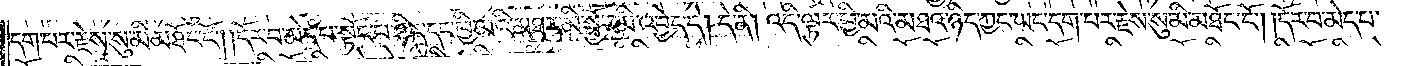དག་པར་རྗེས་སུ་མི་མཐོང་ངོ༌། །དོར་བ་མེད་པ་སྟོང་པ་ཉིད་དང་ཕྱི་མའི་མཐར་མི་སྦྱོར་མི་འབྱེད་དེ། དེ་ནི། འདི་ལྟར་ཕྱི་མའི་མཐའ་ཉིད་ཀྱང་ཡང་དག་པར་རྗེས་སུ་མི་མཐོང་ངོ༌། །དོར་བ་མེད་པ་
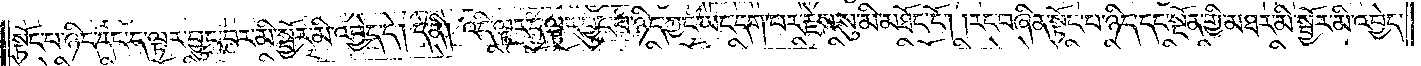སྟོང་པ་ཉིད་དང་ད་ལྟར་བྱུང་བར་མི་སྦྱོར་མི་འབྱེད་དེ། དེ་ནི། འདི་ལྟར་ད་ལྟར་བྱུང་བ་ཉིད་ཀྱང་ཡང་དག་པར་རྗེས་སུ་མི་མཐོང་ངོ༌། །རང་བཞིན་སྟོང་པ་ཉིད་དང་སྔོན་གྱི་མཐར་མི་སྦྱོར་མི་འབྱེད་
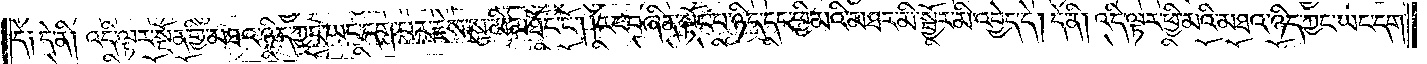དེ༑ དེ་ནི། འདི་ལྟར་སྔོན་གྱི་མཐའ་ཉིད་ཀྱང་ཡང་དག་པར་རྗེས་སུ་མི་མཐོང་ངོ༌། །རང་བཞིན་སྟོང་པ་ཉིད་དང་ཕྱི་མའི་མཐར་མི་སྦྱོར་མི་འབྱེད་དེ། དེ་ནི། འདི་ལྟར་ཕྱི་མའི་མཐའ་ཉིད་ཀྱང་ཡང་དག་
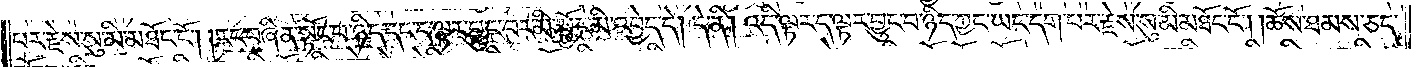པར་རྗེས་སུ་མི་མཐོང་ངོ༌། །རང་བཞིན་སྟོང་པ་ཉིད་དང་ད་ལྟར་བྱུང་བར་མི་སྦྱོར་མི་འབྱེད་དེ། དེ་ནི། འདི་ལྟར་ད་ལྟར་བྱུང་བ་ཉིད་ཀྱང་ཡང་དག་པར་རྗེས་སུ་མི་མཐོང་ངོ༌། །ཆོས་ཐམས་ཅད་
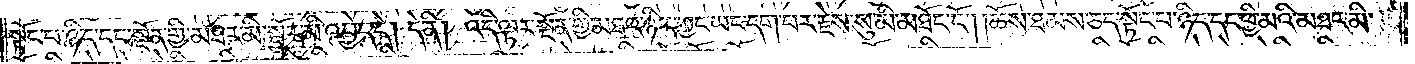སྟོང་པ་ཉིད་དང་སྔོན་གྱི་མཐར་མི་སྦྱོར་མི་འབྱེད་དེ། དེ་ནི། འདི་ལྟར་སྔོན་གྱི་མཐའ་ཉིད་ཀྱང་ཡང་དག་པར་རྗེས་སུ་མི་མཐོང་ངོ༌། །ཆོས་ཐམས་ཅད་སྟོང་པ་ཉིད་དང་ཕྱི་མའི་མཐར་མི་
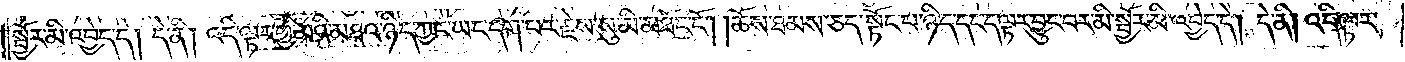སྦྱོར་མི་འབྱེད་དེ། དེ་ནི། འདི་ལྟར་ཕྱི་མའི་མཐའ་ཉིད་ཀྱང་ཡང་དག་པར་རྗེས་སུ་མི་མཐོང་ངོ༌། །ཆོས་ཐམས་ཅད་སྟོང་པ་ཉིད་དང་ད་ལྟར་བྱུང་བར་མི་སྦྱོར་མི་འབྱེད་དེ། དེ་ནི། འདི་ལྟར་
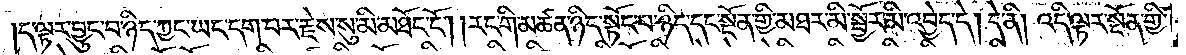ད་ལྟར་བྱུང་བ་ཉིད་ཀྱང་ཡང་དག་པར་རྗེས་སུ་མི་མཐོང་ངོ༌། །རང་གི་མཚན་ཉིད་སྟོང་པ་ཉིད་དང་སྔོན་གྱི་མཐར་མི་སྦྱོར་མི་འབྱེད་དེ། དེ་ནི། འདི་ལྟར་སྔོན་གྱི་
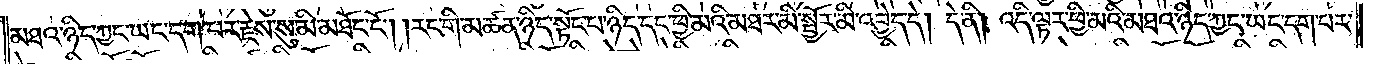མཐའ་ཉིད་ཀྱང་ཡང་དག་པར་རྗེས་སུ་མི་མཐོང་ངོ༌། །རང་གི་མཚན་ཉིད་སྟོང་པ་ཉིད་དང་ཕྱི་མའི་མཐར་མི་སྦྱོར་མི་འབྱེད་དེ། དེ་ནི། འདི་ལྟར་ཕྱི་མའི་མཐའ་ཉིད་ཀྱང་ཡང་དག་པར་
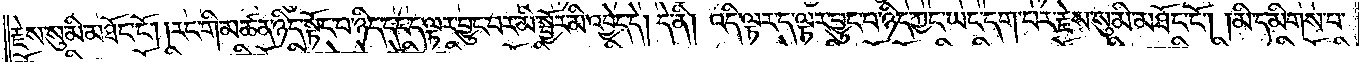རྗེས་སུ་མི་མཐོང་ངོ༌། །རང་གི་མཚན་ཉིད་སྟོང་པ་ཉིད་དང་ད་ལྟར་བྱུང་བར་མི་སྦྱོར་མི་འབྱེད་དེ། དེ་ནི། འདི་ལྟར་ད་ལྟར་བྱུང་བ་ཉིད་ཀྱང་ཡང་དག་པར་རྗེས་སུ་མི་མཐོང་ངོ༌། །མི་དམིགས་པ་
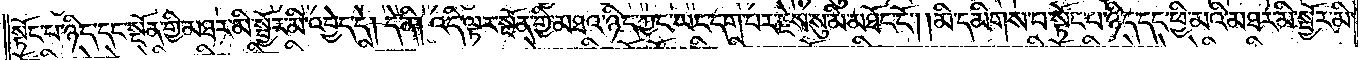སྟོང་པ་ཉིད་དང་སྔོན་གྱི་མཐར་མི་སྦྱོར་མི་འབྱེད་དེ། དེ་ནི། འདི་ལྟར་སྔོན་གྱི་མཐའ་ཉིད་ཀྱང་ཡང་དག་པར་རྗེས་སུ་མི་མཐོང་ངོ༌། །མི་དམིགས་པ་སྟོང་པ་ཉིད་དང་ཕྱི་མའི་མཐར་མི་སྦྱོར་མི་
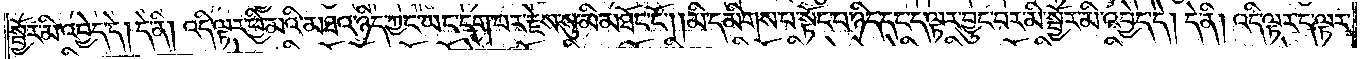སྦྱོར་མི་འབྱེད་དེ། དེ་ནི། འདི་ལྟར་ཕྱི་མའི་མཐའ་ཉིད་ཀྱང་ཡང་དག་པར་རྗེས་སུ་མི་མཐོང་ངོ༌། །མི་དམིགས་པ་སྟོང་པ་ཉིད་དང་ད་ལྟར་བྱུང་བར་མི་སྦྱོར་མི་འབྱེད་དེ། དེ་ནི། འདི་ལྟར་ད་ལྟར་
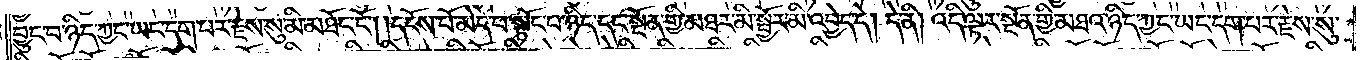བྱུང་བ་ཉིད་ཀྱང་ཡང་དག་པར་རྗེས་སུ་མི་མཐོང་ངོ༌། །དངོས་པོ་མེད་པ་སྟོང་པ་ཉིད་དང་སྔོན་གྱི་མཐར་མི་སྦྱོར་མི་འབྱེད་དེ། དེ་ནི། འདི་ལྟར་སྔོན་གྱི་མཐའ་ཉིད་ཀྱང་ཡང་དག་པར་རྗེས་སུ་
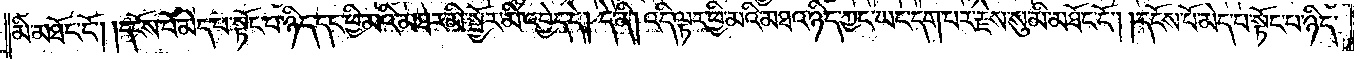མི་མཐོང་ངོ༌། །དངོས་པོ་མེད་པ་སྟོང་པ་ཉིད་དང་ཕྱི་མའི་མཐར་མི་སྦྱོར་མི་འབྱེད་དེ། དེ་ནི། འདི་ལྟར་ཕྱི་མའི་མཐའ་ཉིད་ཀྱང་ཡང་དག་པར་རྗེས་སུ་མི་མཐོང་ངོ༌། །དངོས་པོ་མེད་པ་སྟོང་པ་ཉིད་
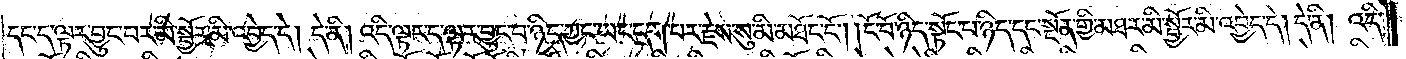དང་ད་ལྟར་བྱུང་བར་མི་སྦྱོར་མི་འབྱེད་དེ། དེ་ནི། འདི་ལྟར་ད་ལྟར་བྱུང་བ་ཉིད་ཀྱང་ཡང་དག་པར་རྗེས་སུ་མི་མཐོང་ངོ༌། །ངོ་བོ་ཉིད་སྟོང་པ་ཉིད་དང་སྔོན་གྱི་མཐར་མི་སྦྱོར་མི་འབྱེད་དེ། དེ་ནི། འདི་
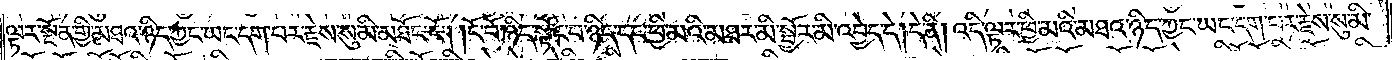ལྟར་སྔོན་གྱི་མཐའ་ཉིད་ཀྱང་ཡང་དག་པར་རྗེས་སུ་མི་མཐོང་ངོ༌། །ངོ་བོ་ཉིད་སྟོང་པ་ཉིད་དང་ཕྱི་མའི་མཐར་མི་སྦྱོར་མི་འབྱེད་དེ། དེ་ནི། འདི་ལྟར་ཕྱི་མའི་མཐའ་ཉིད་ཀྱང་ཡང་དག་པར་རྗེས་སུ་མི་
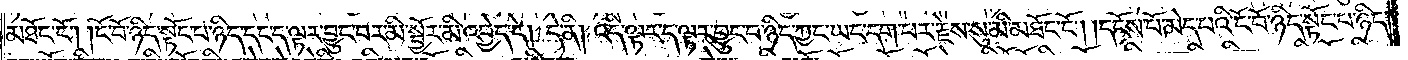མཐོང་ངོ༌། །ངོ་བོ་ཉིད་སྟོང་པ་ཉིད་དང་ད་ལྟར་བྱུང་བར་མི་སྦྱོར་མི་འབྱེད་དེ། དེ་ནི། འདི་ལྟར་ད་ལྟར་བྱུང་བ་ཉིད་ཀྱང་ཡང་དག་པར་རྗེས་སུ་མི་མཐོང་ངོ༌། །དངོས་པོ་མེད་པའི་ངོ་བོ་ཉིད་སྟོང་པ་ཉིད་
